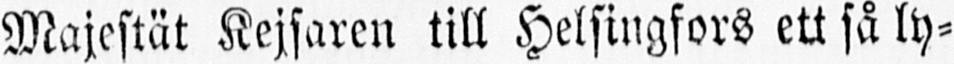Majestät Kejsaren till Helsingfors ett så ly-
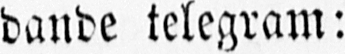dande telegram:
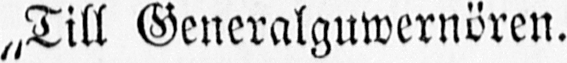„Till Generalguwernören.
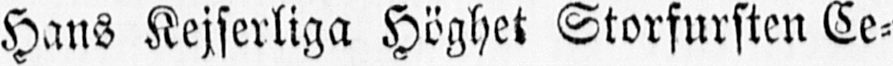Hans Kejserliga Höghet Storfursten Ce-
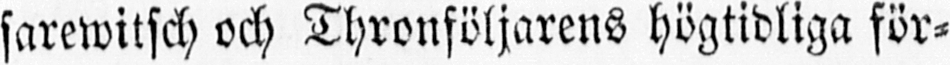sarewitsch och Thronföljarens högtidliga för-
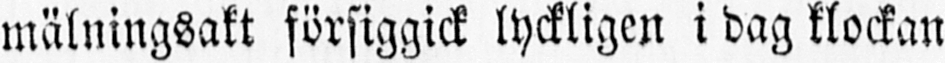mälningsakt försiggick lyckligen i dag klockan
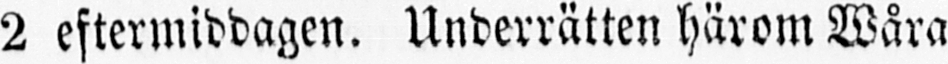2 eftermiddagen. Underrätten härom Wåra
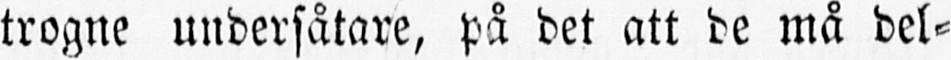trogne undersåtare, på det att de må del-
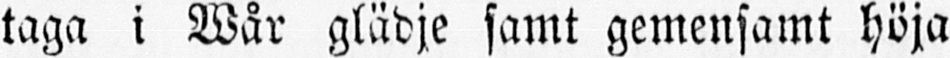taga i Wår glädje samt gemensamt höja
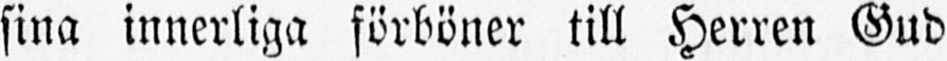sina innerliga förböner till Herren Gud
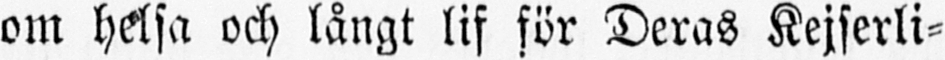om helsa och långt lif för Deras Kejserli-
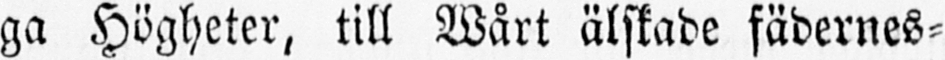ga Högheter, till Wårt älskade fädernes-
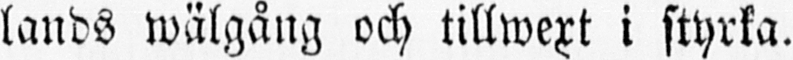lands wälgång och tillwext i styrka.
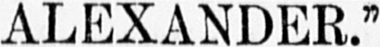ALEXANDER."
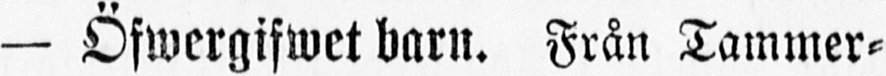— Öfwergifwet barn. Från Tammer-
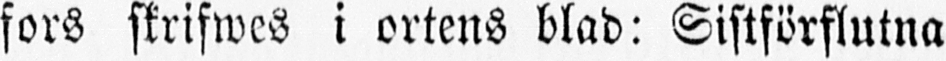fors skrifwes i ortens blad: Sistförflutna
